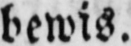bewis.
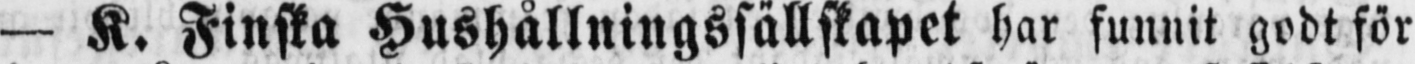— K. Finska Hushållningssällskapet har funnit godt för
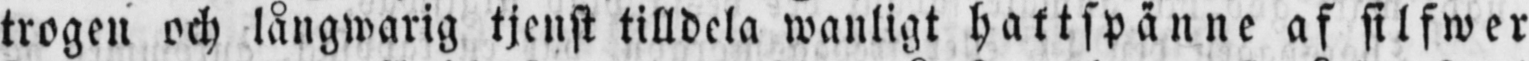trogen och långwarig tjenst tilldela wanligt hattspänne af silfwer
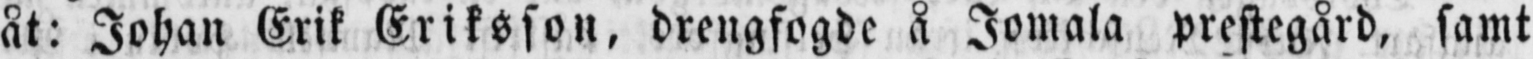åt: Johan Erik Eriksson, drengfogde å Jomala prestegård, samt
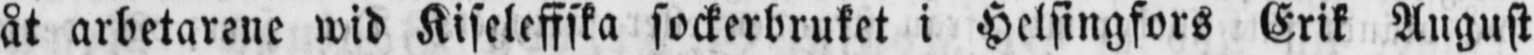åt arbetarene wid Kiseleffska sockerbruket i Helsingfors Erik August
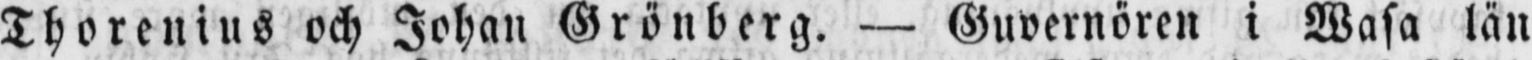Thorenius och Johan Grönberg. — Guvernören i Wasa län
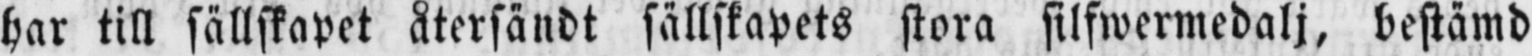har till sällskapet återsändt sällskapets stora silfwermedalj, bestämd
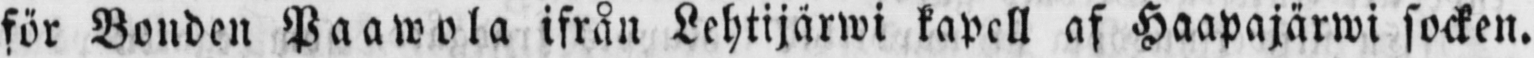för Bonden Paawola ifrån Lehtijärwi kapell af Haapajärwi socken.
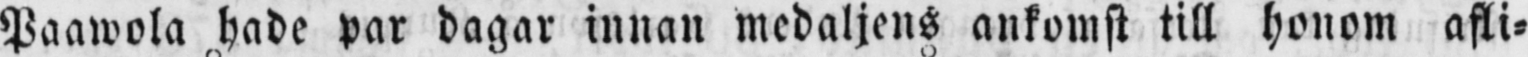Paawola hade par dagar innan medaljens ankomst till honom afli-
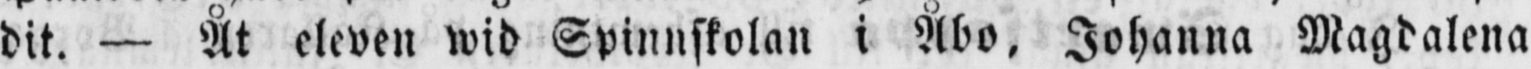dit. — Åt eleven wid Spinnskolan i Åbo, Johanna Magdalena
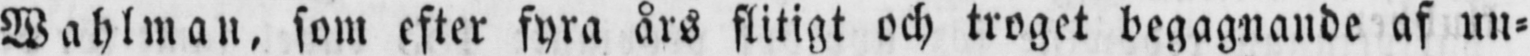Wahlman, som efter fyra års flitigt och troget begagnande af un-
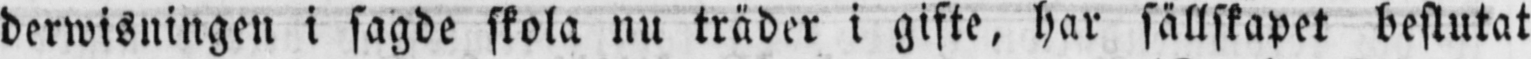derwisningen i sagde skola nu träder i gifte, har sällskapet beslutat
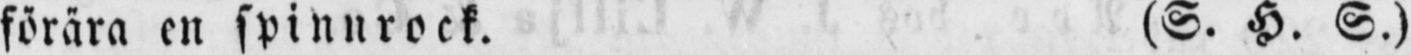förära en spinnrock. (S. H. S.)
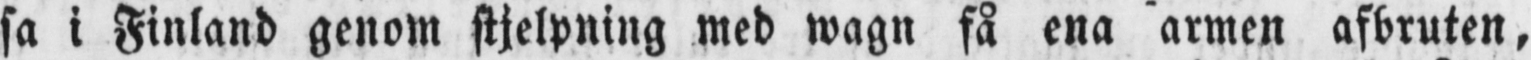sa i Finland genom stjelpning med wagn få ena armen afbruten,
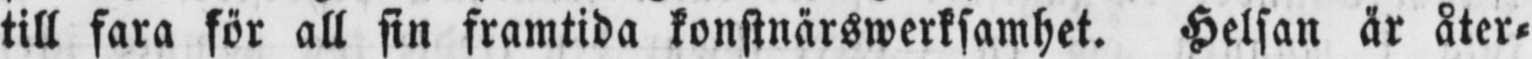till fara för all sin framtida konstnärswerksamhet. Helsan är åter-
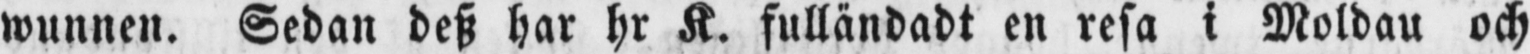wunnen. Sedan desz har hr K. fulländadt en resa i Moldau och
